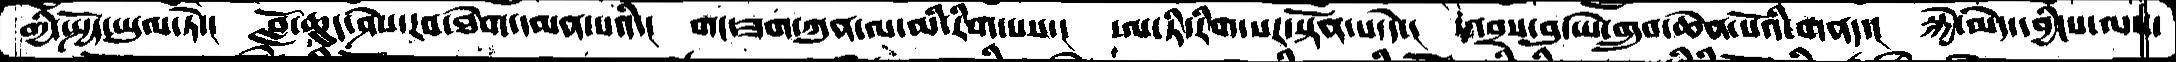གྱི་སྤྱོད་ཡུལ་ཏེ་།  བློ་ཆུང་ཤེས་རབ་ཐེག་དམན་པའི་།  གང་ཟག་ཀུན་ལ་མི་རིག་པས་།  ཨ་ཏི་རིག་པར་སྟོན་པ་དེ་།  འབྲས་བུ་ཡེ་གྲུབ་ཆེན་པོའི་གནད་།  སྐྱེ་མེད་དབྱིངས་ལས་
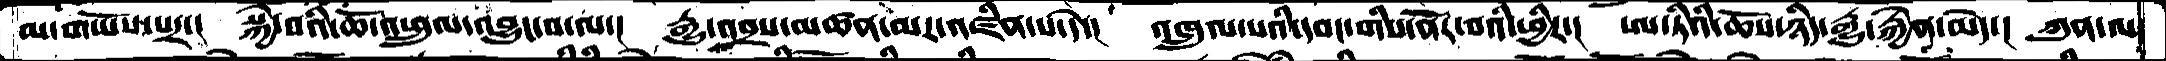མ་གཡོས་པར་།  སྐྱེ་བའི་ཆོ་འཕྲུལ་འབྱུང་བ་ལ་།  རྒྱུ་འབྲས་མཚན་མར་འཛིན་པ་དེ་།  འཁྲུལ་པའི་དབང་གིས་ནོར་བའི་ཕྱིར་།  ཨ་ཏིའི་ཆོས་ཉིད་རྒྱུ་རྐྱེན་མེད་།  ཀུན་ལ་
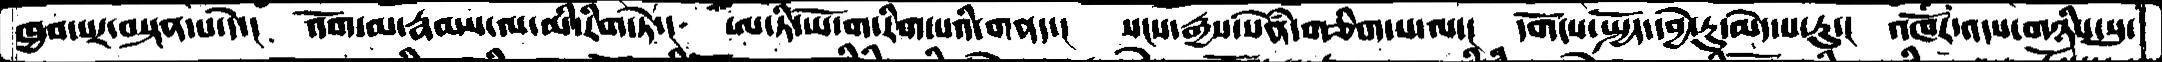ཁྱབ་པར་བསྟན་པ་དེ་།  འོག་མ་རྣམས་ལ་མི་རིག་ཏེ་།  ཨ་ཏི་ཡོ་ག་རིག་པའི་གནད་།  སངས་རྒྱས་སེཾན་གཅིག་པ་ལ་།  དགོངས་སྤྱོད་དབྱེ་རུ་མེད་པ་རུ་།  འཁོར་འདས་གཉིས་སུ་
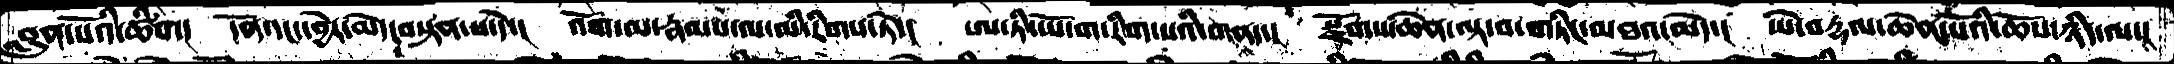བླུན་པོའི་ཚིག།   དོན་དང་དབྱེར་མེད་བསྟན་པ་དེ་།  འོག་མ་རྣམས་ལ་མི་རིགས་ཏེ་།  ཨ་ཏི་ཡོ་ག་རིག་པའི་གནད་།  སྫོགས་ཆེན་ལྟ་བ་གཏིང་མཐའ་མེད་།  ཡེ་བརྡལ་ཆེན་པོའི་ཆོས་ཉིད་ལ་།
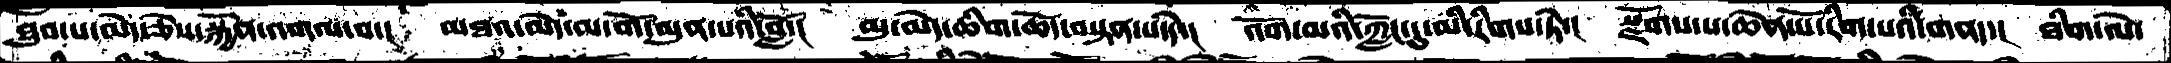ཐུབ་པ་མེད་ཅེས་སྐྱོན་འགལ་བ་།  མཐའ་མེད་མ་གོ་མུན་པའི་བློ་།  མུ་མེད་ཆིག་ཆོད་བསྟན་པ་ཏེ་།  འོག་མའི་ཀློང་དུ་མི་རིགས་ཏེ་།  སྫོགས་པ་ཆེན་པོ་རིག་པའི་གནད་།  ཐིག་ལེ་
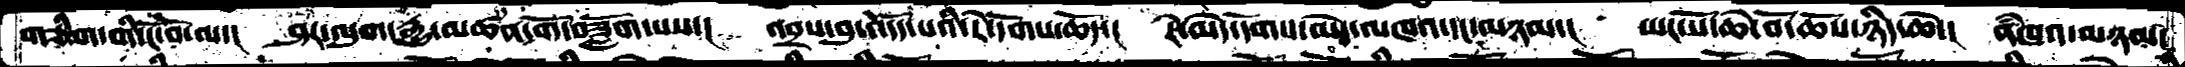གཅིག་གི་ངོ་བོ་ལ་།   ཤར་ལུག་རྒྱུ་མཚན་གོ་བཟློག་པས་།  འབྲས་བུ་འདོད་པའི་རེ་དོགས་ཆོད་།  རེ་མེད་དོགས་མེད་མཁའ་དང་མཉམ་།  ཡང་པོ་ཆེ་བོ་ཆོས་ཉིད་ཆེ་།  ནཾཁའ་མཉམ་
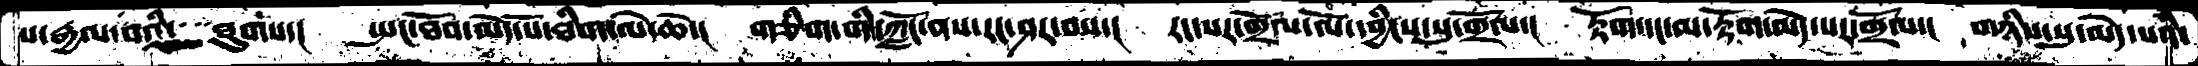པ་རྒྱལ་བའི་ཐུགས་།  སྤང་ཐོབ་མེད་པོ་ཐིག་ལེ་ཆེ་།  གཅིག་གི་ཀློང་ནས་རང་ཤར་བས་།  རང་སར་གྲོལ་ལོ་དབྱིངས་སུ་གྲོལ་།  རྟོག་དང་མ་རྟོག་མེད་པར་གྲོལ་།   གཉིས་སུ་མེད་པའི་
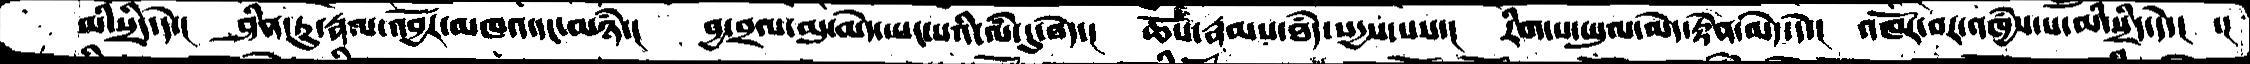མི་སྲིད་དེ་།   ཤིན་ཏུ་རྣལ་འབྱོར་མཁའ་དང་མཉཾ་།  བྱ་བྲལ་མུ་མེད་ཡང་པའི་ལཾ་དུ་བདེ་།  ཆོས་རྣམས་ཐཾད་སདྱས་པས་།  རིག་པ་ཡུལ་མེད་རྟེན་མེད་དེ་།  འཁོར་བར་འཁྱཾས་པ་མི་སྲིད་དེ་།  ་།
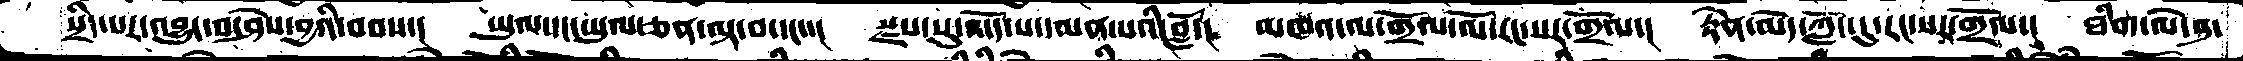སྲིད་པར་འབྱུང་བ་ཤེས་བྱའི་བབས་།  ཡུལ་དང་ཡུལ་ཅན་ལྟ་བ་དང་་།  སྫས་སུ་འདོད་པ་དམན་པའི་བློ་།  མཁའ་ལ་གྲོལ་ལོ་རང་སར་གྲོལ་།  རྟེན་མེད་ཀློང་དུ་རང་སར་གྲོལ་།  ཐིག་ལེ་བུ་
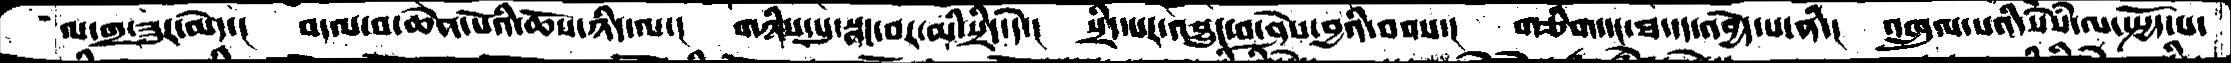ལ་གྲ་ཟུར་མེད་།  བདལ་བ་ཆེན་པོའི་ཆོས་ཉིད་ལ་།  གཉིས་སུ་སྣང་བར་མི་སྲིད་དེ་།  སྲིད་པར་འབྱུང་བ་ཤེས་བྱའི་བབས་།  གཅིག་དང་ཐ་དད་འབྱེད་པ་ནི་།  འཁྲུལ་པའི་སེཾས་ལ་སྤྱོད་པ་
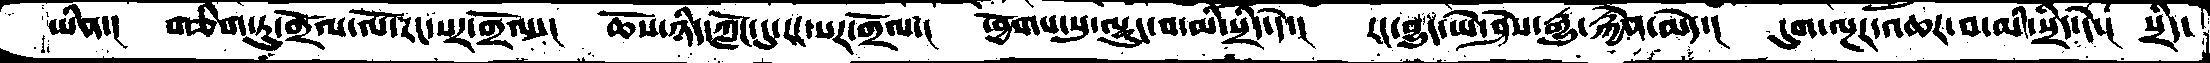ཡིན་།  གཅིག་ཏུ་གྲོལ་ལོ་རང་སར་གྲོལ་།  ཆོས་ཉིད་ཀློང་དུ་རང་སར་གྲོལ་།  ཕྱོགས་སུ་ལྟུང་བ་མི་སྲིད་དེ་།  རང་བྱུང་ཡེ་ཤེས་རྒྱུ་རྐྱེན་མེད་།  དུག་ལྔར་འཆར་བ་མི་སྲིད་དེ་།  སྲིད་
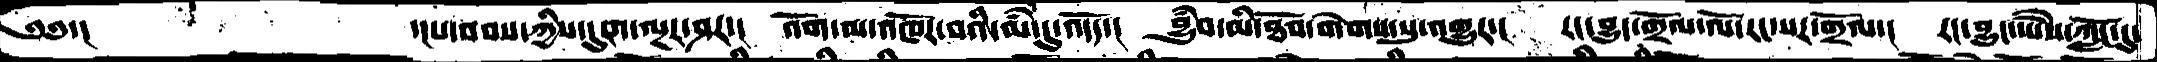༄༅་།         ་།པ་བབས་ཀྱིས་དུག་ལྔར་ཤར་།  འོག་ལ་འཁོར་བའི་ལཾ་དུ་འདོད་།  བྱུཾབ་མི་ཐོབ་གེགས་སུ་འགྱུར་།  རང་བྱུང་གྲོལ་ལོ་རང་སར་གྲོལ་།  རང་བྱུང་ཡཻས་ཀློང་ངུ་
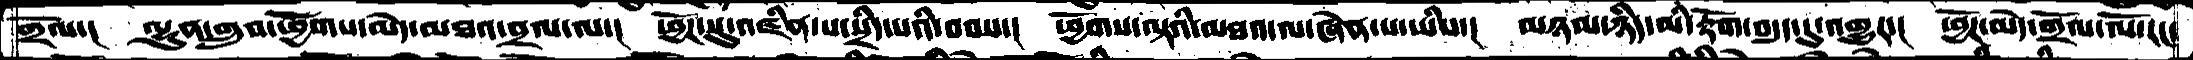གྲོལ་།   ལྷུན་གྲུབ་ཕྱོགས་མེད་མཐའ་བྲལ་ལ་།  ཕྱོཌ་སུ་འཛིན་པ་སྲིད་པའི་བབས་།  ཕྱོགས་ལྟའི་མཐའ་ལ་ཞེན་པ་ཡིས་།  མཉམ་ཉིད་མི་རྟོག་བདུད་དུ་འགྱུར་།  ཕྱོཌ་མེད་གྲོལ་ལོ་རང་
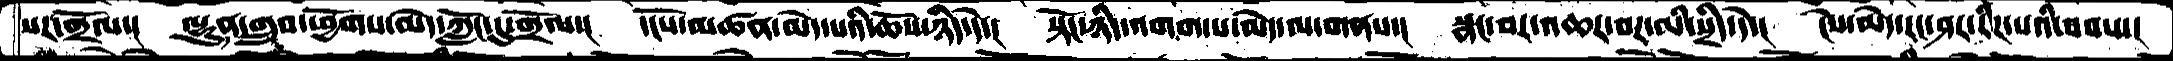སར་གྲོལ་།  ལྷུན་གྲུབ་ཕྱོགས་མེད་ཀློང་དུ་གྲོལ་།  དངོས་མཚན་མེད་པའི་ཆོས་ཉིད་དེ་།  སྟོང་ཉིད་འགག་པ་མེད་ལ་གནས་།  སྣང་བར་འཆར་བར་མི་སྲིད་དེ་།  ངེས་མེད་རང་ཤར་རིཌ་པའི་བབས་།
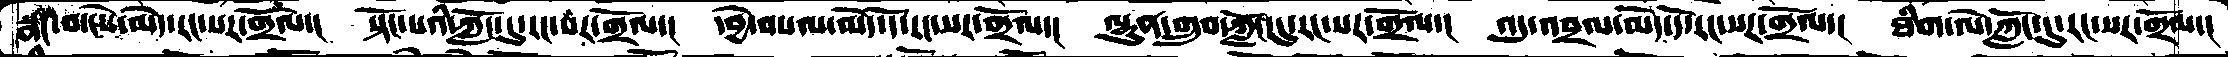སྣང་བ་ངེས་མེད་རང་སར་གྲོལ་།  སྟོང་པའི་ཀློང་དུ་རང་སར་གྲོལ་།  དབྱེ་བསལ་མེད་དོ་རང་སར་གྲོལ་།  ལྷུན་གྲུབ་ཀློང་དུ་རང་སར་གྲོལ་།  འདུ་འབྲལ་མེད་དོ་རང་སར་གྲོལ་།  ཐིག་ལེ་ཀློང་དུ་རང་སར་གྲོལ་།
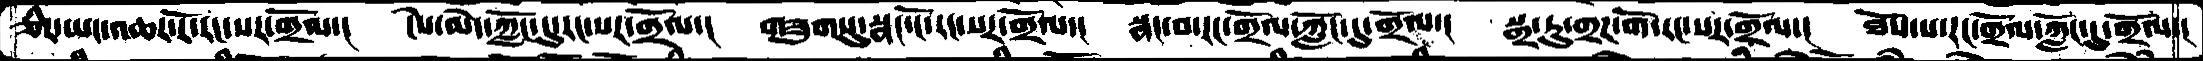ཅིར་ཡང་འཆར་རོ་རང་སར་གྲོལ་།   ངེས་མེད་ཀློང་དུ་རང་སར་གྲོལ་།  གཟུགསུ་སྣང་ངོ་རང་སར་གྲོལ་།  སྣང་བ་རང་གྲོལ་ཀློང་དུ་གྲོལ་།  སྒྲ་རུ་གྲཌ་གོ་རང་སར་གྲོལ་།  ཐོས་པ་རང་གྲོལ་ཀློང་དུ་གྲོལ་།
